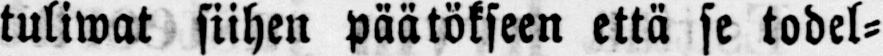tuliwat siihen päätökseen että se todel-
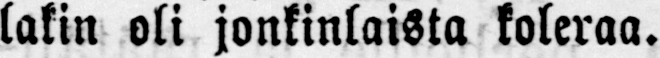lakin oli jonkinlaista koleraa.
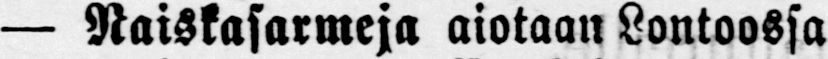— Naiskasarmeja aiotaan Lontoossa
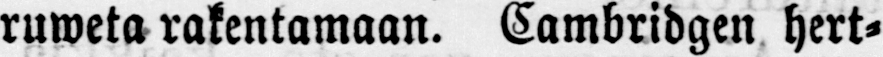ruweta rakentamaan. Cambridgen hert-
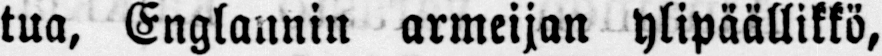tua, Englannin armeijan ylipäällikkö,
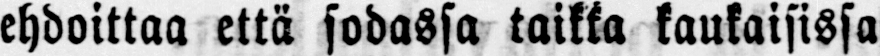ehdoittaa että sodassa taikka kaukaisissa
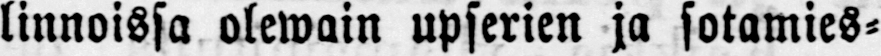linnoissa olewain upserien ja sotamies-
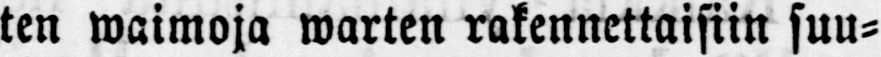ten waimoja warten rakennettaisiin suu-
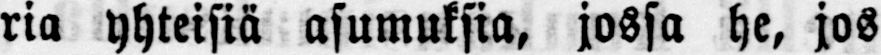ria yhteisiä asumuksia, jossa he, jos
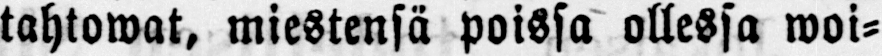tahtowat, miestensä poissa ollessa woi-
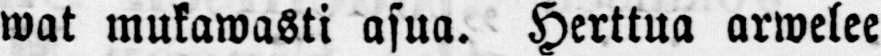wat mukawasti asua. Herttua arwelee
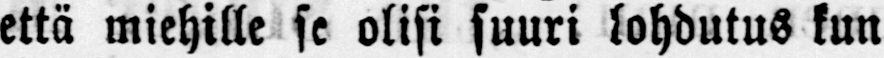että miehille se olisi suuri lohdutus kun
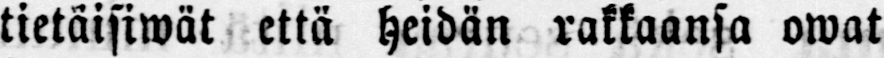tietaisiwät että heidän rakkaansa owat
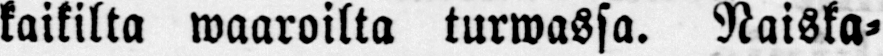kaikilta waaroilta turwassa. Naiska-
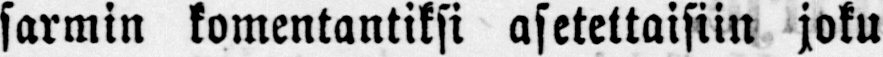sarmin komentantiksi asetettaisiin joku
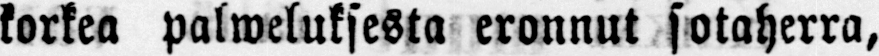korkea palweluksesta eronnut sotaherra,
